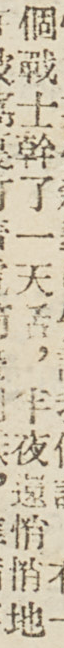個戰士幹了一天活，半夜還悄悄地
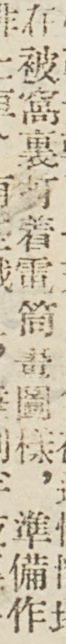在被窩裏打着電筒畫圖樣，準備作
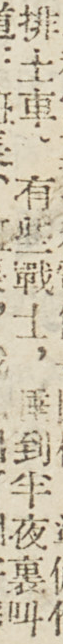排土車。有些戰士，睡到半夜裏叫
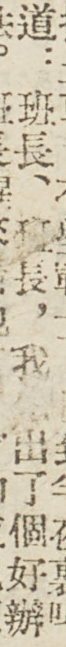道：班長、班長，我想出了個好辦
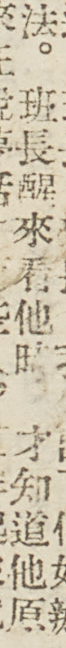法。班長醒來看他時，才知道他原
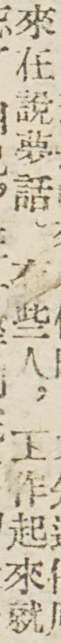來在說夢話。有些人，工作起來就
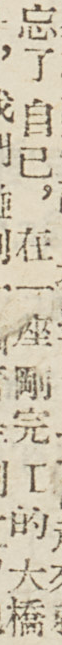忘了自己，在一座剛完工的大橋
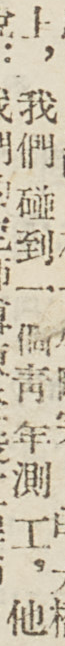上，我們碰到一個青年測工，他
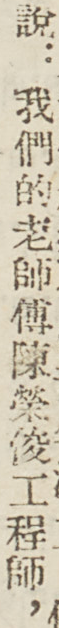說：我們的老師傅陳榮俊工程師，
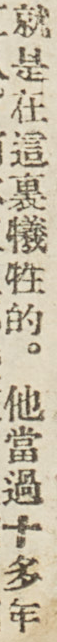就是在這裏犧牲的。他當過十多年
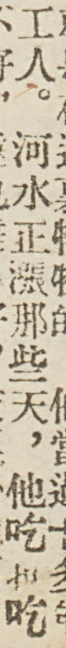供熱。河水正漲那些天，他吃也吃
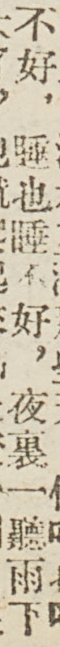不好，睡也睡不好，夜裏一聽雨下
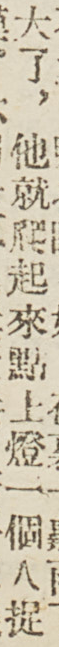大了，他就爬起來點上燈一個人捉
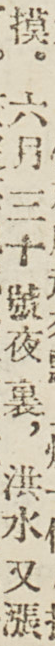摸。六月三十號夜裏，洪水又漲
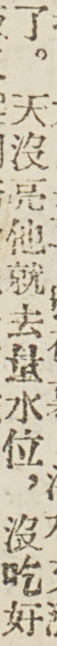了。天沒亮它就去量水位，沒吃好
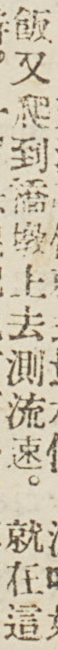飯又爬到橋墩上去測流速。就在這
